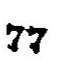77
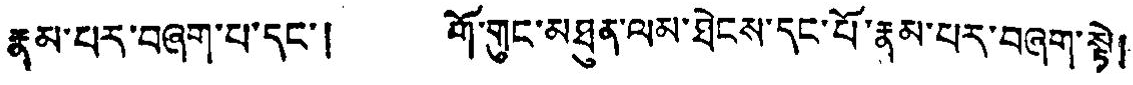རྣམ་པར་བཞག་པ་དང་། གོ་གུང་མཐུན་ལམ་ཐེངས་དང་པོ་རྣམ་པར་བཞག་སྟེ།
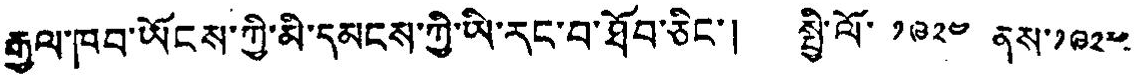རྒྱལ་ཁབ་ཡོངས་ཀྱི་མི་དམངས་ཀྱི་ཡི་རང་བ་ཐོབ་ཅིང་། སྤྱི་ལོ་ ༡༩༢༤ ནས་༡༩༢༤
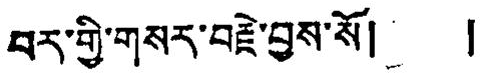བར་གྱི་གསར་བརྗེ་བྱས་སོ། །
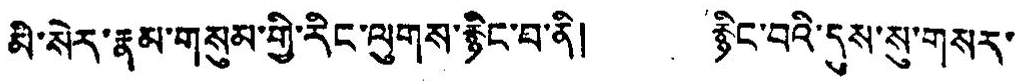མི་སེར་རྣམ་གསུམ་གྱི་རིང་ལུགས་རྙིང་བ་ནི། རྙིང་བའི་དུས་སུ་གསར་
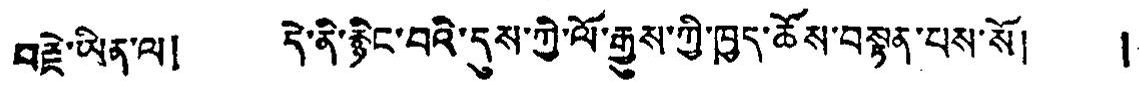བརྗེ་ཡིན་ལ། དེ་ནི་རྙིང་བའི་དུས་ཀྱི་ལོ་རྒྱུས་ཀྱི་ཁྱད་ཚོས་བསྟན་པས་སོ། །
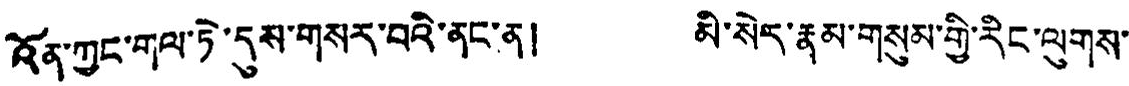འོན་ཀྱང་གལ་ཏེ་དུས་གསར་བའི་ནང་ན། མི་སེར་རྣམ་གསུམ་གྱི་རིང་ལུགས་
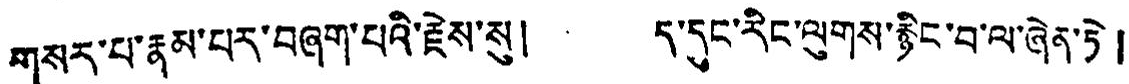གསར་པ་རྣམ་པར་བཞག་པའི་རྗེས་སུ། ད་དུང་རིང་ལུགས་རྙིང་བ་ལ་ཞིན་ཏེ།
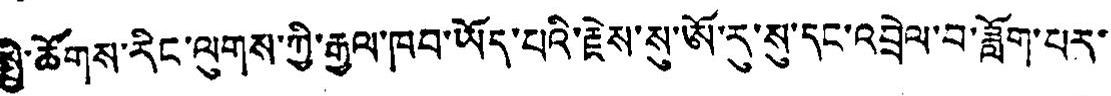སྤྱི་ཚོགས་རིང་ལུགས་ཀྱི་རྒྱལ་ཁབ་ཡོད་པའི་རྗེས་སུ་ཨོ་རུ་སུ་དང་འབྲེལ་བ་ཟློག་པར་
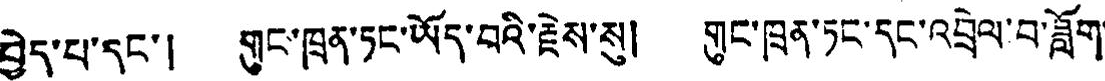བྱེད་པ་དང་། གུང་ཁྲན་ཏང་ཡོད་བའི་རྗེས་སུ། གུང་ཁྲན་ཏང་དང་འབྲེལ་བ་ཟློག་
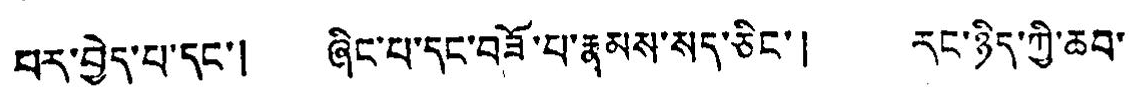བར་བྱེད་པ་དང་། ཞིང་པ་དང་བཟོ་པ་རྣམས་སད་ཅིང་། རང་ཉིད་ཀྱི་ཆབ་
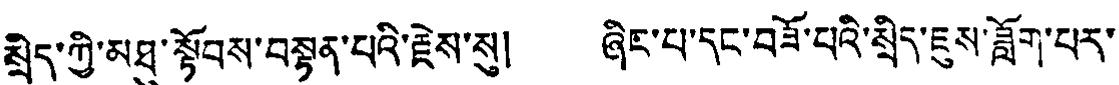སྲིད་ཀྱི་མཐུ་སྟོབས་བསྟན་པའི་རྗེས་སུ། ཞིང་པ་དང་བཟོ་པའི་སྲིད་ཇུས་ཟློག་པར་
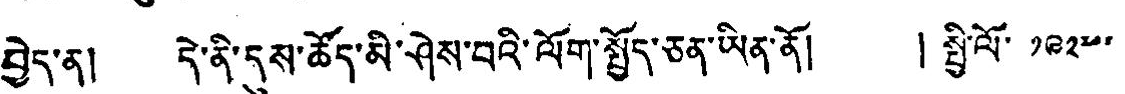བྱེད་ན། དེ་ནི་དུས་ཚོད་མི་ཤེས་བའི་ལོག་སྤྱོད་ཅན་ཡིན་ནོ། །སྤྱི་ལོ་ ༡༩༢༧
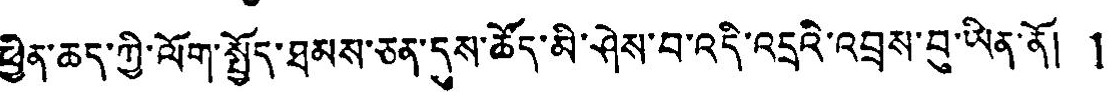ཕྱིན་ཆད་ཀྱི་ལོག་སྤྱོད་ཐམས་ཅན་དུས་ཚོད་མི་ཤེས་བ་འདི་འདྲའི་འབྲས་བུ་ཡིན་ནོ། །
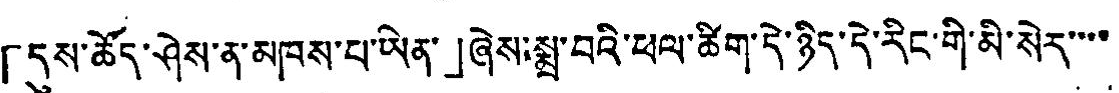「དུས་ཚོད་ཤེས་ན་མཁས་པ་ཡིན་」ཞེས་སྨྲ་བའི་ཕལ་ཚིག་དེ་ཉིད་དེ་རིང་གི་མི་སེར་་་་
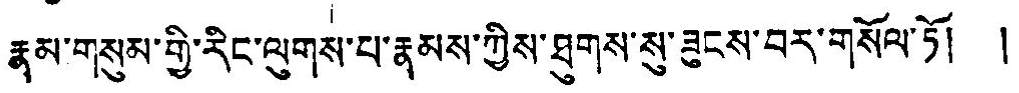རྣམ་གསུམ་གྱི་རིང་ལུགས་པ་རྣམས་ཀྱིས་ཐུགས་སུ་ཟུངས་བར་གསོལ་ཏོ། །
